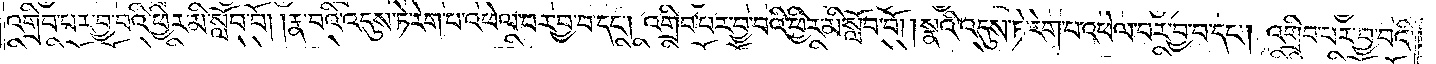འགྲིབ་པར་བྱ་བའི་ཕྱིར་མི་སློབ་བོ། །རྣ་བའི་འདུས་ཏེ་རེག་པ་འཕེལ་བར་བྱ་བ་དང༌། འགྲིབ་པར་བྱ་བའི་ཕྱིར་མི་སློབ་བོ། །སྣའི་འདུས་ཏེ་རེག་པ་འཕེལ་བར་བྱ་བ་དང༌། འགྲིབ་པར་བྱ་བའི་
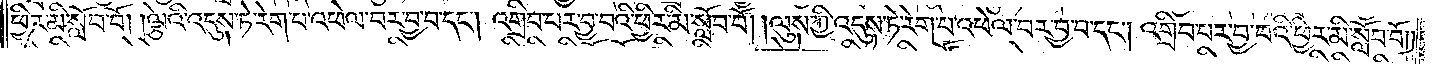ཕྱིར་མི་སློབ་བོ། །ལྕེའི་འདུས་ཏེ་རེག་པ་འཕེལ་བར་བྱ་བ་དང༌། འགྲིབ་པར་བྱ་བའི་ཕྱིར་མི་སློབ་བོ། །ལུས་ཀྱི་འདུས་ཏེ་རེག་པ་འཕེལ་བར་བྱ་བ་དང༌། འགྲིབ་པར་བྱ་བའི་ཕྱིར་མི་སློབ་བོ༎
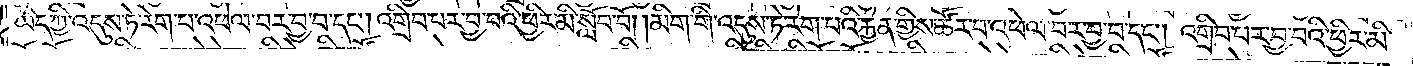ཡིད་ཀྱི་འདུས་ཏེ་རེག་པ་འཕེལ་བར་བྱ་བ་དང༌། འགྲིབ་པར་བྱ་བའི་ཕྱིར་མི་སློབ་བོ། །མིག་གི་འདུས་ཏེ་རེག་པའི་རྐྱེན་གྱིས་ཚོར་བ་འཕེལ་བར་བྱ་བ་དང༌། འགྲིབ་པར་བྱ་བའི་ཕྱིར་མི་
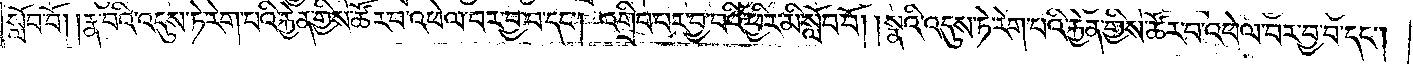སློབ་བོ། །རྣ་བའི་འདུས་ཏེ་རེག་པའི་རྐྱེན་གྱིས་ཚོར་བ་འཕེལ་བར་བྱ་བ་དང༌། འགྲིབ་པར་བྱ་བའི་ཕྱིར་མི་སློབ་བོ། །སྣའི་འདུས་ཏེ་རེག་པའི་རྐྱེན་གྱིས་ཚོར་བ་འཕེལ་བར་བྱ་བ་དང༌།
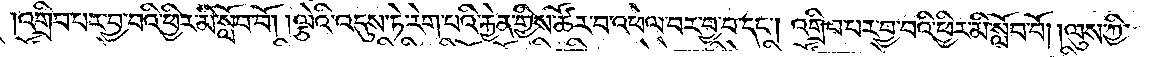འགྲིབ་པར་བྱ་བའི་ཕྱིར་མི་སློབ་བོ། །ལྕེའི་འདུས་ཏེ་རེག་པའི་རྐྱེན་གྱིས་ཚོར་བ་འཕེལ་བར་བྱ་བ་དང༌། འགྲིབ་པར་བྱ་བའི་ཕྱིར་མི་སློབ་བོ། །ལུས་ཀྱི་
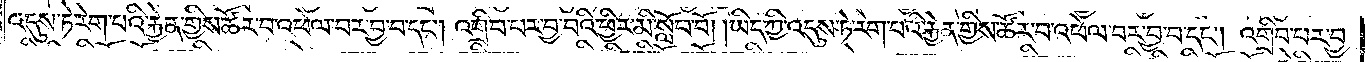འདུས་ཏེ་རེག་པའི་རྐྱེན་གྱིས་ཚོར་བ་འཕེལ་བར་བྱ་བ་དང༌། འགྲིབ་པར་བྱ་བའི་ཕྱིར་མི་སློབ་བོ། །ཡིད་ཀྱི་འདུས་ཏེ་རེག་པའི་རྐྱེན་གྱིས་ཚོར་བ་འཕེལ་བར་བྱ་བ་དང༌། འགྲིབ་པར་བྱ་
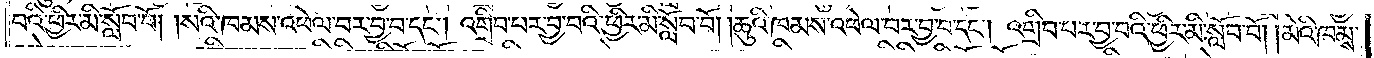བའི་ཕྱིར་མི་སློབ་བོ། །སའི་ཁམས་འཕེལ་བར་བྱ་བ་དང༌། འགྲིབ་པར་བྱ་བའི་ཕྱིར་མི་སློབ་བོ། །ཆུའི་ཁམས་འཕེལ་བར་བྱ་བ་དང༌། འགྲིབ་པར་བྱ་བའི་ཕྱིར་མི་སློབ་བོ། །མེའི་ཁམས་
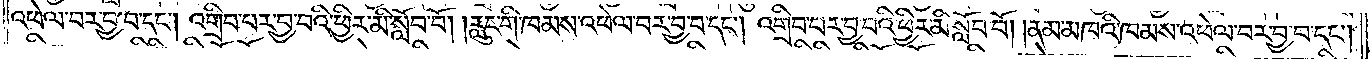འཕེལ་བར་བྱ་བ་དང༌། འགྲིབ་པར་བྱ་བའི་ཕྱིར་མི་སློབ་བོ། །རླུང་གི་ཁམས་འཕེལ་བར་བྱ་བ་དང༌། འགྲིབ་པར་བྱ་བའི་ཕྱིར་མི་བའི་ཕྱིར་མི་སློབ་བོ། །ནམ་མཁའི་ཁམས་འཕེལ་བར་བྱ་བ་དང༌།
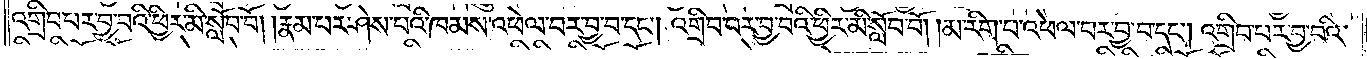འགྲིབ་པར་བྱ་བའི་ཕྱིར་མི་སློབ་བོ། །རྣམ་པར་ཤེས་པའི་ཁམས་འཕེལ་བར་བྱ་བ་དང༌། འགྲིབ་པར་བྱ་བའི་ཕྱིར་མི་སློབ་བོ། །མ་རིག་པ་འཕེལ་བར་བྱ་བ་དང༌། འགྲིབ་པར་བྱ་བའི་
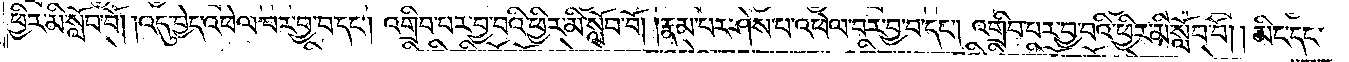ཕྱིར་མི་སློབ་བོ། །འདུ་བྱེད་འཕེལ་བར་བྱ་བ་དང༌། འགྲིབ་པར་བྱ་བའི་ཕྱིར་མི་སློབ་བོ། །རྣམ་པར་ཤེས་པ་འཕེལ་བར་བྱ་བ་དང༌། འགྲིབ་པར་བྱ་བའི་ཕྱིར་མི་སློབ་བོ། །མིང་དང་
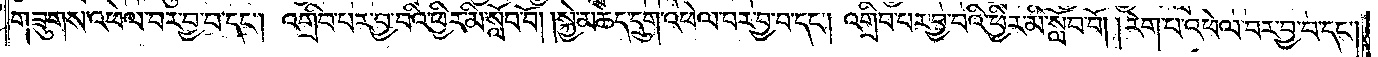གཟུགས་འཕེལ་བར་བྱ་བ་དང༌། འགྲིབ་པར་བྱ་བའི་ཕྱིར་མི་སློབ་བོ། །སྐྱེ་མཆེད་དྲུག་འཕེལ་བར་བྱ་བ་དང༌། འགྲིབ་པར་བྱ་བའི་ཕྱིར་མི་སློབ་བོ། །རེག་པ་འཕེལ་བར་བྱ་བ་དང༌།
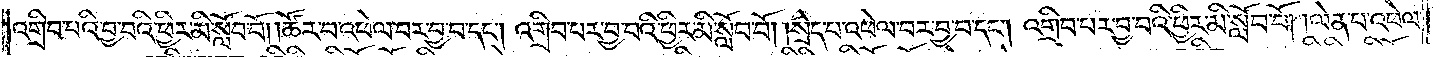འགྲིབ་པར་བྱ་བའི་ཕྱིར་མི་སློབ་བོ། །ཚོར་བ་འཕེལ་བར་བྱ་བ་དང༌། འགྲིབ་པར་བྱ་བའི་ཕྱིར་མི་སློབ་བོ། །སྲེད་པ་འཕེལ་བར་བྱ་བ་དང༌། འགྲིབ་པར་བྱ་བའི་ཕྱིར་མི་སློབ་བོ། །ལེན་པ་འཕེལ་
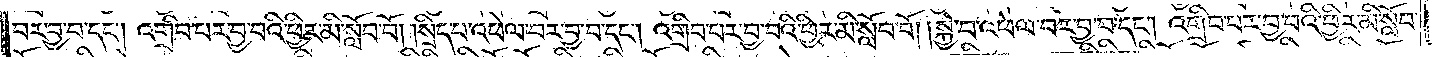བར་བྱ་བ་དང༌། འགྲིབ་པར་བྱ་བའི་ཕྱིར་མི་སློབ་བོ། །སྲིད་པ་འཕེལ་བར་བྱ་བ་དང༌། འགྲིབ་པར་བྱ་བའི་ཕྱིར་མི་སློབ་བོ། །སྐྱེ་བ་འཕེལ་བར་བྱ་བ་དང༌། འགྲིབ་པར་བྱ་བའི་ཕྱིར་མི་སློབ་
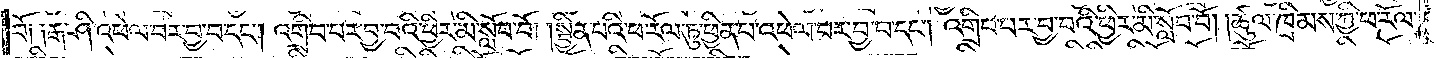བོ༑ ༑རྒ་ཤི་འཕེལ་བར་བྱ་བ་དང༌། འགྲིབ་པར་བྱ་བའི་ཕྱིར་མི་སློབ་བོ། །སྦྱིན་པའི་ཕ་རོལ་ཏུ་ཕྱིན་པ་འཕེལ་བར་བྱ་བ་དང༌། འགྲིབ་པར་བྱ་བའི་ཕྱིར་མི་སློབ་བོ། །ཚུལ་ཁྲིམས་ཀྱི་ཕ་རོལ་
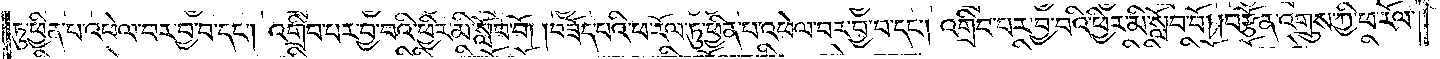ཏུ་ཕྱིན་པ་འཕེལ་བར་བྱ་བ་དང༌། འགྲིབ་པར་བྱ་བའི་ཕྱིར་མི་སློབ་བོ། །བཟོད་པའི་ཕ་རོལ་ཏུ་ཕྱིན་པ་འཕེལ་བར་བྱ་བ་དང༌། འགྲིབ་པར་བྱ་བའི་ཕྱིར་མི་སློབ་བོ། །བརྩོན་འགྲུས་ཀྱི་ཕ་རོལ་
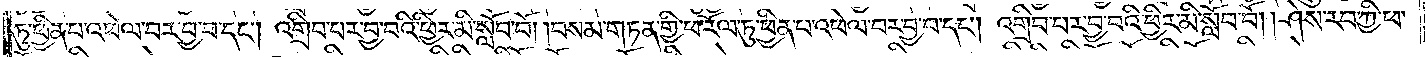ཏུ་ཕྱིན་པ་འཕེལ་བར་བྱ་བ་དང༌། འགྲིབ་པར་བྱ་བའི་ཕྱིར་མི་སློབ་བོ། །བསམ་གཏན་གྱི་ཕ་རོལ་ཏུ་ཕྱིན་པ་འཕེལ་བར་བྱ་བ་དང༌། འགྲིབ་པར་བྱ་བའི་ཕྱིར་མི་སློབ་བོ། །ཤེས་རབ་ཀྱི་ཕ་
